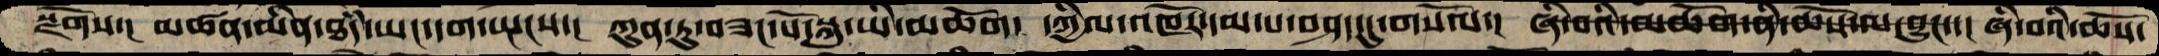སྫོགས་།  མཚན་མིན་ཐཾད་ཡང་དག་སྤངས་།  ཀུན་ཏུ་བཟང་པོ་སྐུ་ཡི་མཆོག།  དཀྱིལ་འཁོར་དམ་པ་བཤད་དུ་གསོལ་།  ཞི་བའི་མཆོག་ནི་ཆོས་ལ་བྱུང་་།   ཞི་བའི་ཆོས་
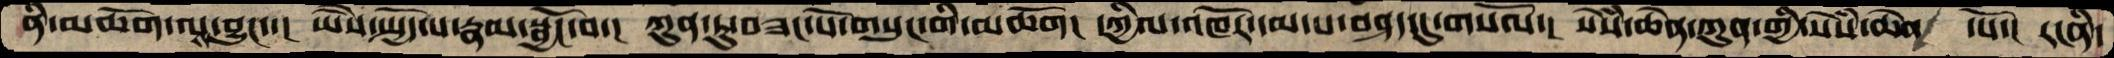ནི་མཆོག་ལས་བྱུང་་།  ཡཻས་སྤྱོད་པ་རྣམ་སྦྱོང་བ་།  ཀུན་ཏུ་བཟང་པོ་གསུང་གི་མཆོག།  དཀྱིལ་འཁོར་དམ་པ་བཤད་དུ་གསོལ་།  སེཾས་ཆེན་ཀུན་གྱི་སེཾས་ཆེན་ པོ་།  རངནི་
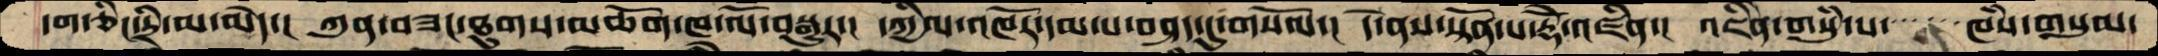དག་ཅིང་དྲི་མ་མེད་།  ཀུན་བཟང་ཐུགས་མཆོག་ཁ་ལོ་བསྒྱུར་།  དཀྱིལ་འཁོར་དམ་པ་བཤད་དུ་གསོལ་།  དེ་ནས་སྟོན་པ་རྡོེ་འཛིན་།  འཇིནི་གསུཾ་པ་་་་་་་ཁཾས་གསུམ་
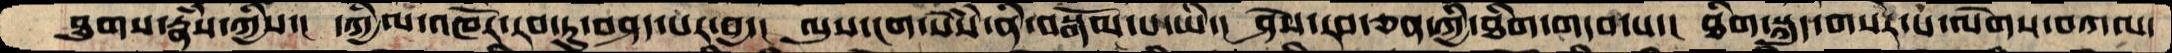ཐུགས་རྣཾས་ཀྱིས་།  དཀྱིལ་འཁོར་རབ་ཏུ་བཤད་པར་བྱ་།  ལུས་ངག་སེཾས་ནི་བསྒོམ་པ་ཡི་།  ཤེས་རབ་ཅན་གྱི་ཐིག་གདབ་པ་།  ཐིག་སྐུད་གསར་པ་ལེགས་བཀལ་
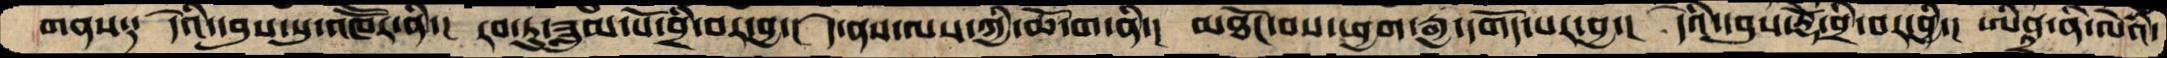གནས༑  དེའི་དབུས་སུ་འཁཽར་ནི་།  རབ་ཏུ་ཟླུམ་པོ་བྲི་བར་བྱ་།  དེ་ནས་ལས་ཀྱི་ཆོ་ག་ནི་།  མཐོང་བས་ཕྱག་རྒྱ་དགོད་པར་བྱ་།  དེའི་དབུས་རྡོེ་བྲི་བར་བྱི་།  ཨིནྟྲ་ནི་ལེའི་
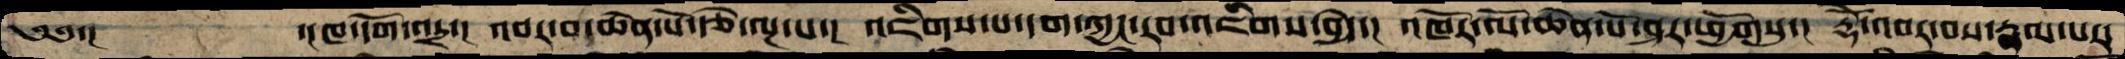༄༅་།       ་།ཁ་དོག་འདྲ་།  འབར་བ་ཆེན་པོ་རྩེ་ལྔ་པ་།  འཇིགས་པ་དག་ཀྱང་རབ་འཇིགས་བྱེད་།  འཁོར་ལོ་ཆེན་པོ་ཤར་ཕྱོགསུ་།  རྡོེ་འབར་བས་རྣམ་པར་
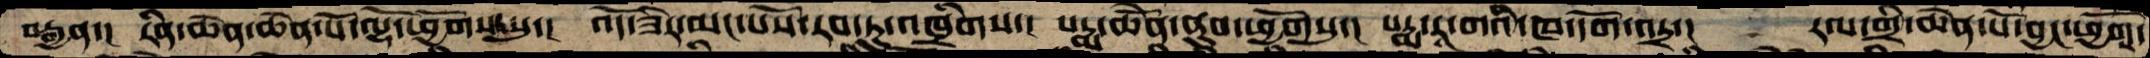བརྒྱན་།  རིན་ཆེན་ཆེན་པོ་ལྷོ་ཕྱོགས་སུ་།  འོད་ཟེར་མང་པོས་རབ་ཏུ་འཁྲིགས་།  པདྨ་ཆེནོ་ནུབ་ཕྱོགསུ་།  པདྨ་རཱ་གའི་ཁ་དོག་འདྲ་།  རལ་གྲི་ཆེན་པོ་བྱང་ཕྱོགས་
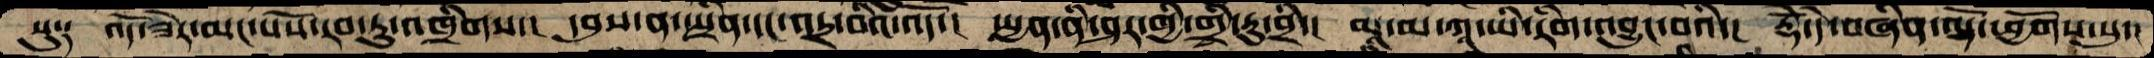སུ༑  འོད་ཟེར་མང་པོས་རབ་ཏུ་འཁྲིགས་།  དབུས་ན་སྤྲིན་དང་འདྲ་བའི་འོད་།  སྤྱན་ནི་ཤར་གྱི་གྲི་རུ་བྲི་།  མཱ་མ་ཀཱ་ཡི་རིག་འབྱུང་བའི་།  རྡོེ་དེ་བཞིན་ལྷོ་ཕྱོགས་སུ་།
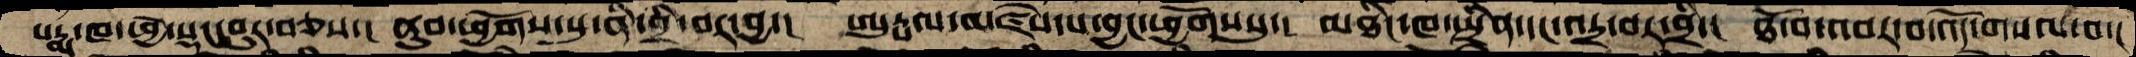པདྨ་ཁ་ཕྱེ་སྡང་བུར་བཅས་།  ནུབ་ཕྱོགས་སུ་ནི་བྲི་བར་བྱ་།  ཨུཏྤལ་མཛེས་པ་བྱང་ཕྱོགས་སུ་།  མཐིང་ག་སྤྲིན་དང་འདྲ་བར་བྲི་།  ཐོ་བ་འབར་བ་འོད་གསལ་བ་།
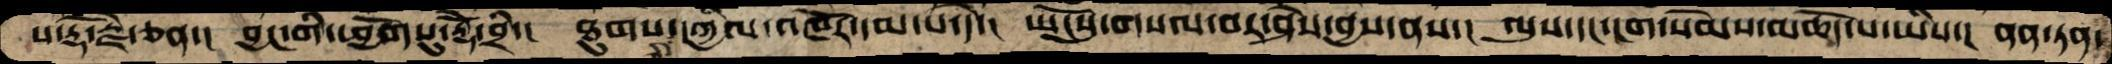པ་རྡོ་རྗེ་ཅན་།  བྱང་གི་ཕྱོགསུ་རྡོེ་བྲི་།  ཐུགས་ཀྱི་དཀྱིལ་འཁོར་དམ་པ་དེ་།  ཡོངསུ་གསལ་བར་ཤེས་བྱས་ནས་།  ལུས་དང་ངག་སེམས་མཆོད་པ་ཡིས་།  ནན་ཏན་
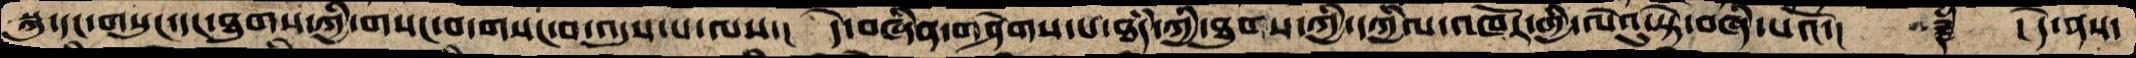སྐུ་དང་གསུང་དང་ཐུགས་ཀྱི་གསང་བ་གསང་བ་འདུས་པ་ལས་།  དེ་བཞིན་གཤེགས་པ་ཐཾད་ཀྱི་ཐུགས་ཀྱི་དཀྱིལ་འཁོར་གྱི་ལེའུ་སྟེ་བཞི་པའོ་།    ༈  ། དེ་ནས་
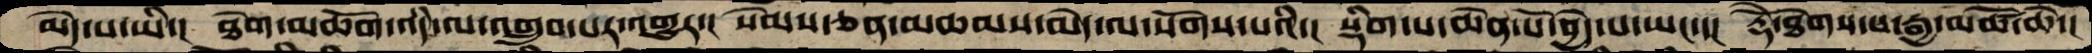མེད་པ་ཡི་།  ཐེག་མཆོག་འདི་ལ་འགྲུབ་པར་འགྱུར་།  སེམས་ཅན་མཚམས་མེད་ལ་སོགས་པའི་།  སྡིག་པ་ཆེན་པོ་བྱེད་པ་ཡང་་།  རྡོེ་ཐེག་པ་རྒྱ་མཚོ་ཆེ་།
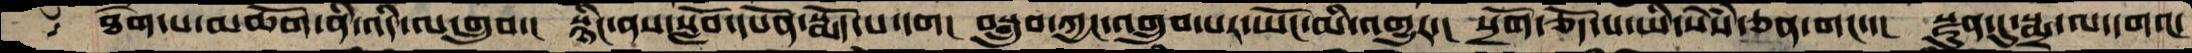ཐེགཔ་མཆོག་ནི་འདི་ལ་གྲུབ་། སྙིང་ནས་སློབ་དཔོན་སྨོད་པ་དག། བསྒྲུབ་ཀྱང་འགྲུབ་པར་ཡོང་མི་འགྱུར་། སྲོག་ཅོད་པ་ཡི་སེཾས་ཅན་གང་་། སྫུན་དུ་སྨྲ་ལ་དགའ་
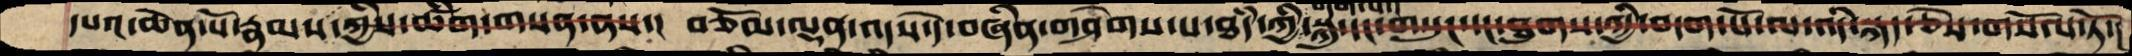དཔའ་ཆེན་པོ་རྣམས་ཀྱིས་ཚིག་གསན་ནས་།  བཅོམ་ལྡན་འདས་དེ་བཞིན་གཤེགས་པ་ཐཾད་ཀྱི་སྐུ་དང་གསུང་དང་ཐུགས་ཀྱི་བདག་པོ་ལ་འདི་སྐད་ཅེས་གསོལ་ཏོ་།
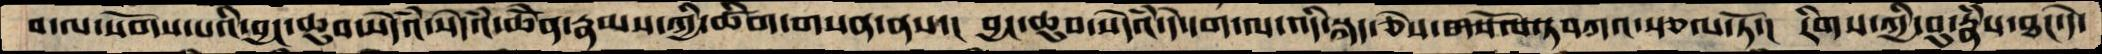བ་ལ་སོགས་པའི་བྱང་ཆུབ་སེཾདའ་སེཾདའ་ཆེནོ་རྣམས་ཀྱི་ཚིག་གསན་ནས་།   བྱང་ཆུབ་སེདཾའ་དེ་དག་ལ་འདི་སྐད་ཅེས་གསོལ་ཏབཀའ་སྩལ་ཏོ་།  རིགས་ཀྱི་བུ་རྣཾས་ཐང་དེ་
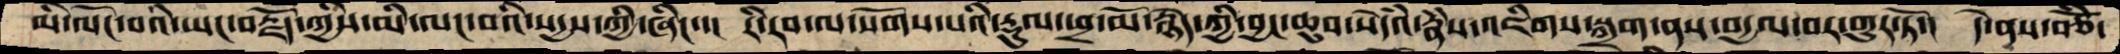མི་ལོང་བའི་ཡང་བརྗོད་ཀྱིས་མི་ལང་བའི་སདྱས་ཀྱི་ཞིང་་།  རི་རབ་ལ་སོགས་པའི་རྡུལ་ཕྲ་མོ་སྙེད་ཀྱི་བྱང་ཆུབ་སེདཾའ་རྣཾས་འཇིགས་སྐྲག་ནས་བདྱལ་བར་གྱུར་ཏོ་།  དེ་ནས་བཅོཾ་
